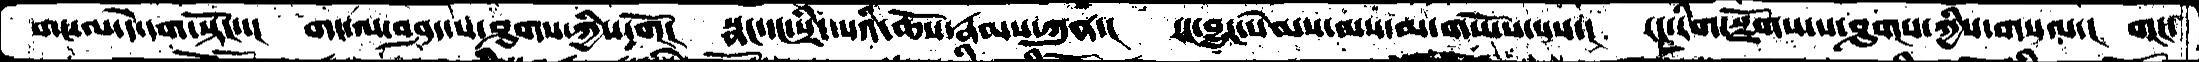གསལ་དེ་དག་སྟོང་་།  གང་ལ་བཤད་པ་ཤུགས་ཀྱིས་གོ།  སྣང་དང་སྲིད་པའི་ཆོས་རྣམས་ཀུན་།  རང་བྱུང་སེམས་ལས་མ་གཡོས་པས་།  རང་རིག་སྫོགས་པ་ཤུགས་ཀྱིས་གསལ་།  གང་
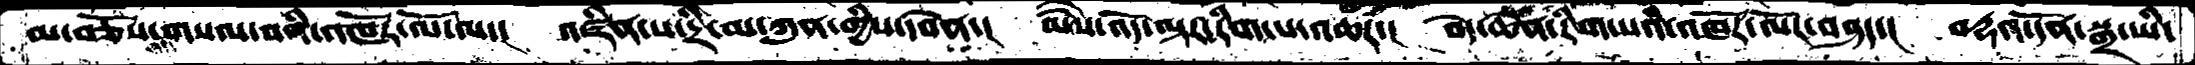མ་བཅོས་གསལ་བའི་འཁོར་ལོ་ལ་།  འཛིན་པ་དྲི་མ་ཀུན་གྱིས་དབེན་།  ཡཻས་འོད་ལྟར་རིག་པ་འཆར་།  བདེ་ཆེན་རིག་པའི་འཁོར་ལོར་བཤད་།  བརྡའ་དོན་སྒྲ་ཡི་
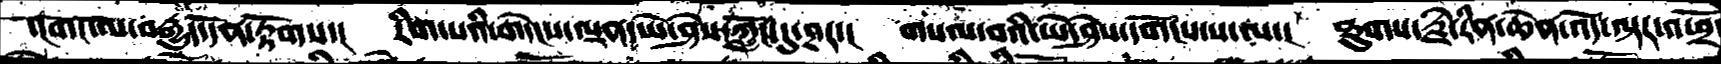་།གང་ལ་བརྒྱུད་དོན་རྟོགས་།  རིག་པའི་གདེངས་ལྡན་ཡེ་ཤེས་ཀླུང་དུ་ཤར་།  གསལ་བའི་ཡེ་ཤེས་དགོངས་པ་ལ་།  ཐུགས་རྗེ་རིན་ཆེན་འོད་ལྟར་འཕྲོ
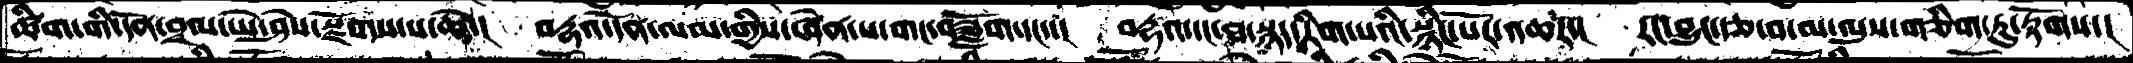ཚིག་གི་དོན་བྲལ་ཡེ་ཤེས་སྫོགས་པ་ཆེ་།  བརྡའ་དོན་ལམ་གྱིས་ཞེན་པ་གང་བཟློག་དང་།  བརྡའ་དང་ཐ་སྙད་རིག་པའི་སྙིང་པོར་འཆར་།  རང་བྱུང་རྩ་བ་མ་ལུས་གཅིག་ཏུ་རྟོགས་།
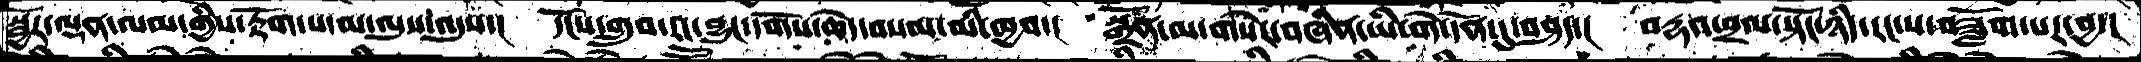སྦྱོར་ལྡན་ལམ་གྱིས་རྟོག་པ་མ་ལུས་འདུས་།  དངོས་གྲུབ་རང་བྱུང་དགོས་ཆེད་བསམ་མི་ཁྱབ་།  སྒྲོན་མ་གསེར་བཞིན་ཡི་གེ་དོན་དུ་བཤད་།  བརྡའ་ཕྲལ་སྟོང་ཉིད་རང་ས་བཟློག་པར་བྱ་།
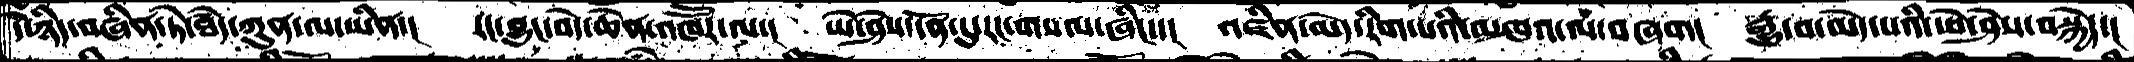དེ་ཉིད་བཞིན་ཏེ་ཐཾད་ཀུན་ལ་ཡིན་།   རང་བྱུང་བདེ་ཆེན་འཁཽར་ལ་།  ཡེ་ཤེས་དོན་དུ་རང་གསལ་ཞིང་།  འཛིན་མེད་རིག་པའི་མཁའ་ལ་བཞག།  རྒྱུ་བ་མེད་པའི་ཡེ་ཤེས་བསྐྱེད་།
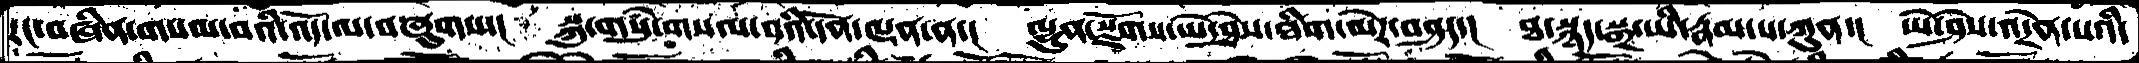རང་བཞིན་གསལ་བའི་འོད་ལ་བཞུགས་།   སྐུ་གསུཾ་གསལ་བའི་དོན་ལྡན་ན་།  ལྷུན་སྫོགས་ཡེ་ཤེས་ཐིག་ལེར་བཤད་།   ཐ་སྙད་སྒྲ་ཡི་རྣམ་པ་ཀུན་།  ཡེ་ཤེས་འདྲེན་པའི་
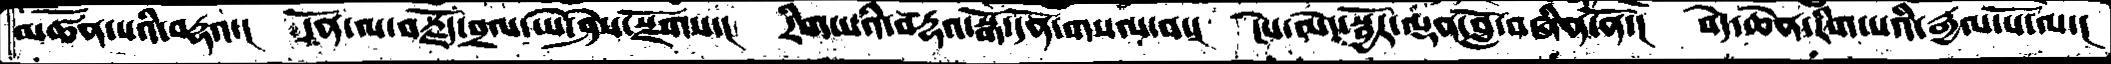མཚོན་པའི་བརྡའ་།  དོན་ལ་བརྗོད་བྲལ་ཡེ་ཤེས་སྫོགས་།   རིག་པའི་བརྡའ་སྒོ་དོན་གསལ་བ་།  ངེས་མེད་སྦྱོར་ལྡན་བློ་བཞིན་ནོ་།   བདེ་ཆེན་རིག་པའི་རྒྱལ་པོ་ལ་།
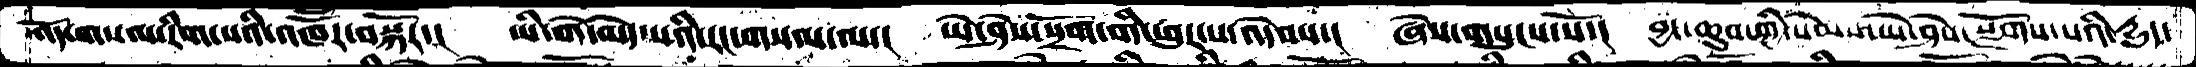འོད་གསལ་རིག་པའི་འཁཽར་བསྐོར་།   ཡི་གེ་མེད་པའི་རང་གསལ་ལ་།  ཡེ་ཤེས་སྲོག་གི་ཕུར་པ་འདེབས་།   ཞེས་གསུངས་སོ་།   བྱང་ཆུབ་གྱི་སེམས་ཡེ་ཤེས་སྫོགས་པའི་དྱུད་
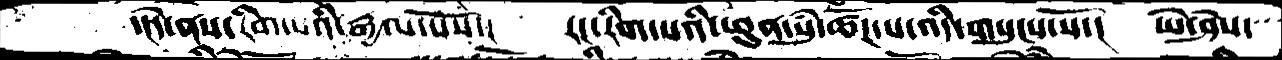་།དེ་ནས་རིག་པའི་རྒྱལ་པོས་།  རང་རིག་པའི་ཕུན་སུཾ་ཚོཌ་པ་འདི་གསུངས་སོ་།  ཡེ་ཤེས་
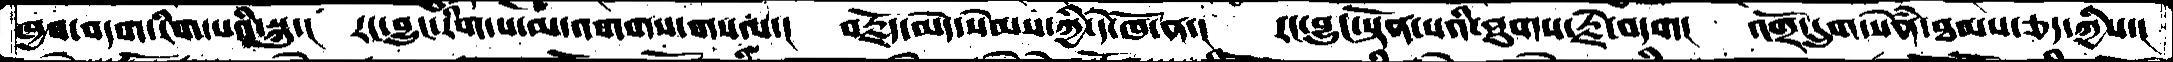ཁྱབ་བདག་རིག་པའི་སྐུ་།  རང་བྱུང་རིག་པ་མ་འགགས་གསལ་།  བརྗོད་མེད་སེམས་ཀྱི་དེ་ཁོ་ན་།  རང་བྱུང་སྟོན་པའི་ཐུགས་རྗེ་བདག།  འགྲོ་དྲུག་སེཾན་ཐམས་ཅད་ཀྱིས་།
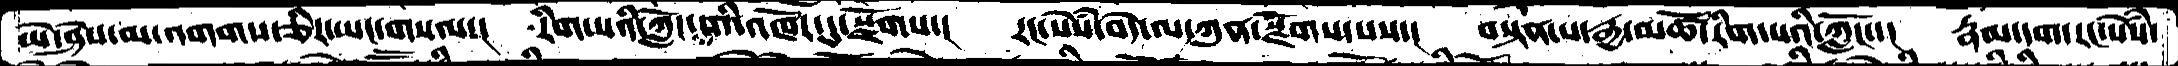ཡེ་ཤེས་མ་འགགས་ཅིར་ཡང་གསལ་།  རིག་པའི་ཀློང་གི་འཁོར་དུ་སྫོགས་།  རང་སེམས་བདེ་ལ་ཀུན་སྫོགས་པས་།  བསྟན་པ་རྒྱ་མཚོ་རིག་པའི་ཀློང་་།  རྣམ་དག་རང་སེཾས་
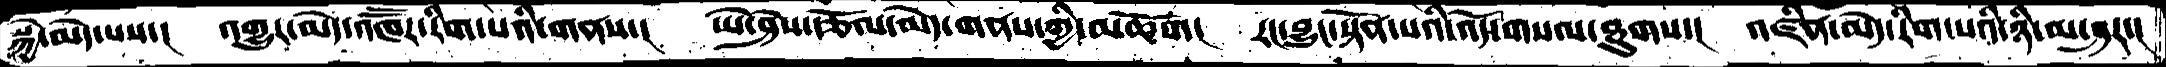སྐྱེ་མེད་པས་།   འགྱུར་མེད་འཁཽར་རིག་པའི་གནས་།  ཡེ་ཤེས་རྩོལ་མེད་གནས་ཀྱི་མཆོག།   རང་བྱུང་སྟོན་པའི་འོད་གསལ་ཐུགས་།  འཛིན་མེད་རིག་པའི་ཉི་མ་ཤར་།
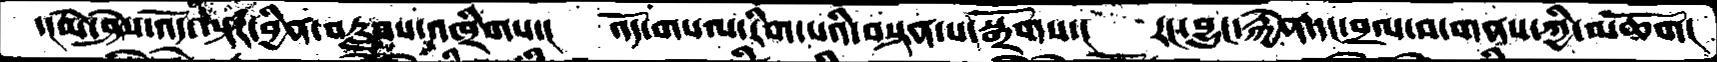་།ཡེ་ཤེས་འོད་ལྟར་བྱིན་བརླབས་འཁྲིགས་།  འོད་གསལ་རིག་པའི་བསྟན་པ་སྒྲོགས་།  རང་བྱུང་རྐྱེན་དང་བྲལ་བ་གནས་ཀྱི་མཆོག།
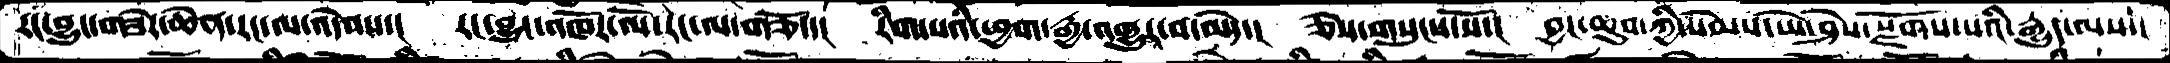རང་བྱུང་གཟེར་ཆེན་རང་ལ་འདེབས་།  རང་བྱུང་འཁོར་ལོ་རང་ལ་གཅོད་།  རིག་པའི་ཕྱག་རྒྱ་འགྱུར་བ་མེད་།  ཅེས་གསུངས་སོ་།  བྱང་ཆུབ་ཀྱི་སེམས་ཡེ་ཤེས་སྫོགས་པའི་རྒྱུད་ལས་།
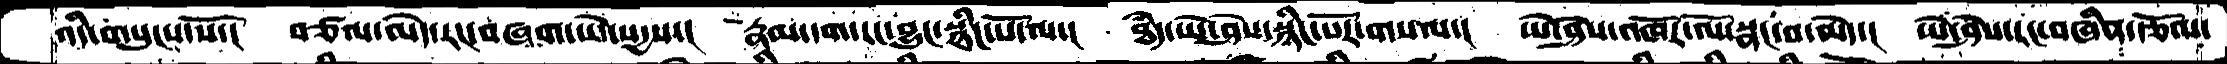འདི་གསུངས་སོ་།   བཙལ་མེད་རང་བཞག་ཡེ་སདྱས་།   རྣམ་དག་རང་བྱུང་སྙིང་པོ་ལ་།  ཐཾད་ཡེ་ཤེས་སྙིང་པོར་གསལ་།  ཡེ་ཤེས་འཁོར་ལོ་སྣང་བ་མེད་།   ཡེ་ཤེས་རང་བཞིན་རྩོལ་
